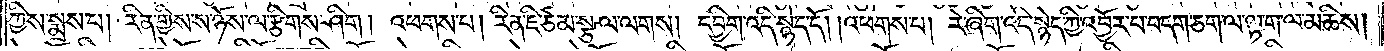ཀྱིས་སྨྲས་པ། རིན་གྱིས་ས་ཉོས་ལ་རྩིགས་ཤིག། འཕགས་པ། རིན་ཇི་ཙམ་སྩལ་ལགས། དབྱིག་འདི་སྙེད་དོ། །འཕགས་པ། རེ་ཞིག་འདི་སྙེད་ཀྱི་འབྱོར་པ་བདག་ཅག་ལ་ལྟ་ག་ལ་མཆིས།
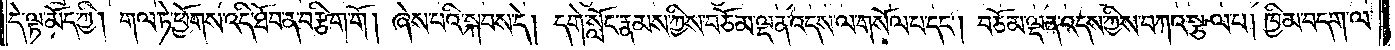དེ་ལྟ་མོད་ཀྱི། གལ་ཏེ་ཕྱོགས་འདི་ཐོབ་ན་བརྩིག་གོ། ཞེས་པའི་སྐབས་དེ། དགེ་སློང་རྣམས་ཀྱིས་བཅོམ་ལྡན་འདས་ལ་གསོལ་པ་དང༌། བཅོམ་ལྡན་འདས་ཀྱིས་བཀའ་སྩལ་པ། ཁྱིམ་བདག་ལ་
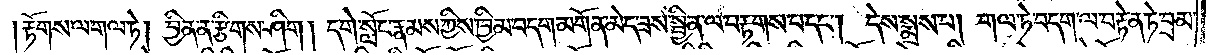།རྟོགས་ལ་གལ་ཏེ། བྱིན་ན་རྩིགས་ཤིག། དགེ་སློང་རྣམས་ཀྱིས་ཁྱིམ་བདག་མགོན་མེད་ཟས་སྦྱིན་ལ་བརྟགས་པ་དང༌། དེས་སྨྲས་པ། གལ་ཏེ་བདག་ལ་བརྟེན་ཏེ་བྲམ་
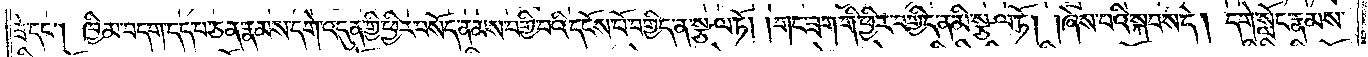ཟེ་དང༌། ཁྱིམ་བདག་དད་པ་ཅན་རྣམས་དགེ་འདུན་གྱི་ཕྱིར་བསོད་ནམས་བགྱི་བའི་དངོས་པོ་བགྱིད་ན་སྩལ་ཏོ། །གང་ཟག་གི་ཕྱིར་བགྱིད་ན་མི་སྩལ་ཏོ། །ཞེས་པའི་སྐབས་དེ། དགེ་སློང་རྣམས་
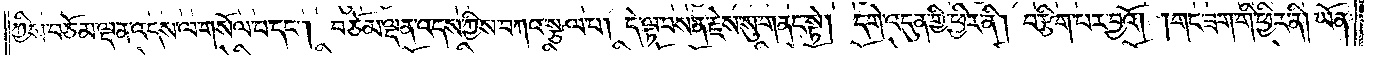ཀྱིས་བཅོམ་ལྡན་འདས་ལ་གསོལ་པ་དང༌། བཅོམ་ལྡན་འདས་ཀྱིས་བཀའ་སྩལ་པ། དེ་ལྟ་བས་ན་རྗེས་སུ་གནང་སྟེ། དགེ་འདུན་གྱི་ཕྱིར་ནི། བརྩིག་པར་བྱའོ། །གང་ཟག་གི་ཕྱིར་ནི། ཡོན་
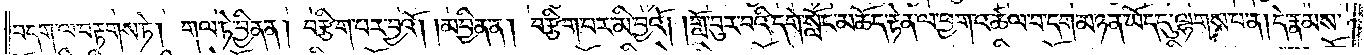བདག་ལ་བརྟགས་ཏེ། གལ་ཏེ་བྱིན་ན། བརྩིག་པར་བྱའོ། །མ་བྱིན་ན། བརྩིག་པར་མི་བྱའོ། །གློ་བུར་བའི་དགེ་སློང་མཆོད་རྟེན་ལ་ཕྱག་འཚལ་བ་དག་མཉན་ཡོད་དུ་ལྷགས་པ་ན། དེ་རྣམས་
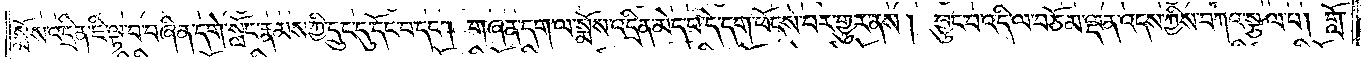སྨོས་འདྲིན་ཇི་ལྟ་བ་བཞིན་དགེ་སློང་རྣམས་ཀྱི་དྲུང་དུ་དོང་བ་དང༌། གཞན་དག་ལ་སྨོས་འདྲིན་མེད་པ་དེ་དག་ཕོངས་པར་གྱུར་ནས། བྱུང་བ་འདི་ལ་བཅོམ་ལྡན་འདས་ཀྱིས་བཀའ་སྩལ་པ། གློ་
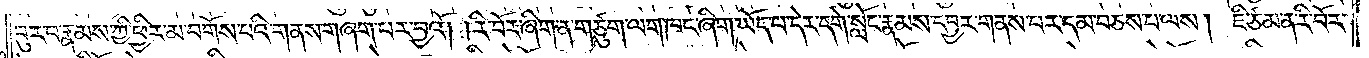བུར་བ་རྣམས་ཀྱི་ཕྱིར་མ་བགོས་པའི་གནས་གཞག་པར་བྱའོ། །རི་བོར་ཞིག་ན་གཙུག་ལག་ཁང་ཞིག་ཡོད་པ་དེར་དགེ་སློང་རྣམས་དབྱར་གནས་པར་དམ་བཅས་པ་ལས། ཇི་ཙམ་ན་རི་བོར་
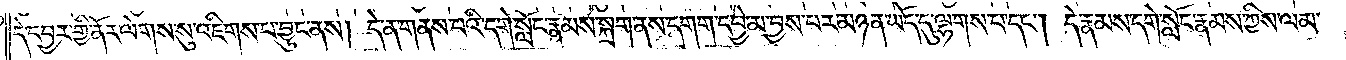དེར་དབྱར་གྱི་ནོར་ལེགས་སུ་འཇིགས་པ་བྱུང་ནས། དེ་ན་གནས་པའི་དགེ་སློང་རྣམས་སྐྲག་ནས་དགག་དབྱེ་མ་བྱས་པར་མཉན་ཡོད་དུ་ལྷགས་པ་དང༌། དེ་རྣམས་དགེ་སློང་རྣམས་ཀྱིས་ལམ་
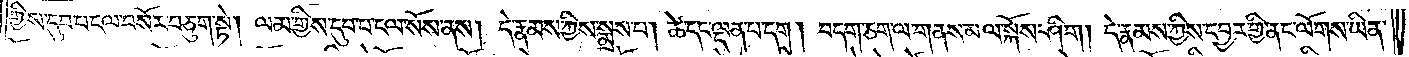གྱིས་དུབ་པ་ངལ་བསོར་བཅུག་སྟེ། ལམ་གྱིས་དུབ་པ་ངལ་སོས་ནས། དེ་རྣམས་ཀྱིས་སྨྲས་པ། ཚེ་དང་ལྡན་པ་དག། བདག་ཅག་ལ་གནས་མལ་སྐོས་ཤིག། དེ་རྣམས་ཀྱིས་དབྱར་གྱི་ནང་ལོགས་ཡིན་
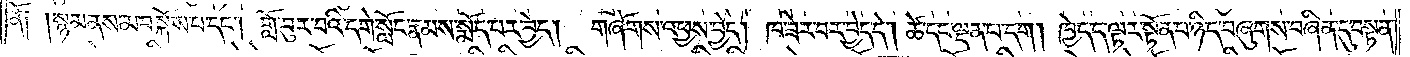ནོ༑ ༑སྙམ་ནས་མ་བསྐོས་པ་དང༌། གློ་བུར་བའི་དགེ་སློང་རྣམས་སྨོད་པར་བྱེད། གཞོགས་འཕྱས་བྱེད། ཁ་ཟེར་བར་བྱེད་དེ། ཚེ་དང་ལྡན་པ་དག། ཁྱེད་ད་ལྟར་སྟོན་པ་ཉིད་བཞུགས་པ་བཞིན་དུ་བསྟན་
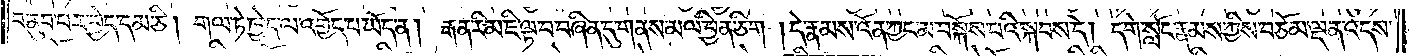པ་ནུབ་པར་བྱེད་དམ་ཅི། གལ་ཏེ་ཁྱེད་ལ་འགྱོད་པ་ཡོད་ན། རྒན་རིམ་ཇི་ལྟ་བ་བཞིན་དུ་གནས་མལ་བྱིན་ཅིག །དེ་རྣམས་འོན་ཀྱང་མ་བསྐོས་པའི་སྐབས་དེ། དགེ་སློང་རྣམས་ཀྱིས་བཅོམ་ལྡན་འདས་
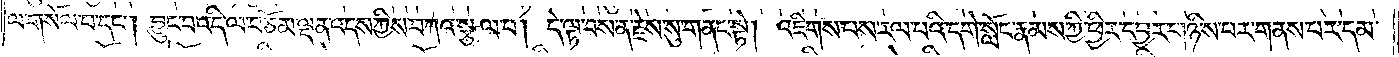ལ་གསོལ་པ་དང༌། བྱུང་བ་འདི་ལ་བཅོམ་ལྡན་འདས་ཀྱིས་བཀའ་སྩལ་པ། དེ་ལྟ་བས་ན་རྗེས་སུ་གནང་སྟེ། འཇིགས་པས་རལ་པའི་དགེ་སློང་རྣམས་ཀྱི་ཕྱིར་དབྱར་གཉིས་པར་གནས་པར་དམ་
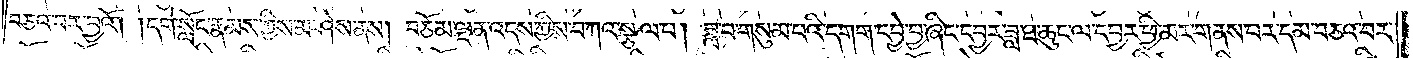བཅའ་བར་བྱའོ། །དགེ་སློང་རྣམས་ཀྱིས་མ་ཤེས་ནས། བཅོམ་ལྡན་འདས་ཀྱིས་བཀའ་སྩལ་པ། ཟླ་བ་གསུམ་པའི་དགག་དབྱེ་བྱ་ཞིང་དབྱར་ཟླ་ཐ་ཆུང་ལ་དབྱར་ཕྱི་མར་གནས་པར་དམ་བཅའ་བར་
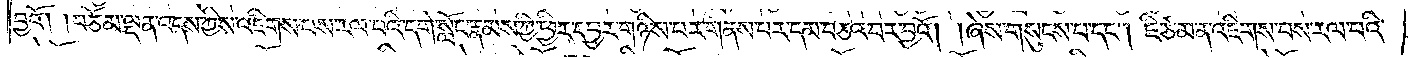བྱའོ། །བཅོམ་ལྡན་འདས་ཀྱིས་འཇིགས་པས་རལ་པའི་དགེ་སློང་རྣམས་ཀྱི་ཕྱིར་དབྱར་གཉིས་པར་གནས་པར་དམ་བཅའ་བར་བྱའོ། །ཞེས་གསུངས་པ་དང༌། ཇི་ཙམ་ན་འཇིགས་པས་རལ་པའི་
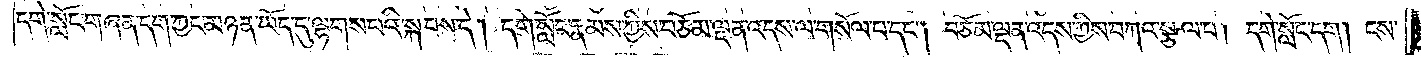དགེ་སློང་གཞན་དག་ཀྱང་མཉན་ཡོད་དུ་ལྷགས་པའི་སྐབས་དེ། དགེ་སློང་རྣམས་ཀྱིས་བཅོམ་ལྡན་འདས་ལ་གསོལ་པ་དང༌། བཅོམ་ལྡན་འདས་ཀྱིས་བཀའ་སྩལ་པ། དགེ་སློང་དག། ངས་
